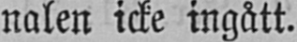nalen icke ingått.
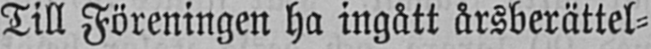Till Föreningen ha ingått årsberättel-
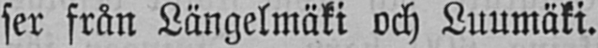ser från Längelmäki och Luumäki.
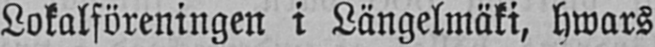Lokalföreningen i Längelmäki, hwars
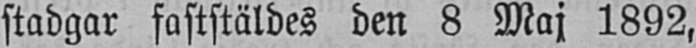stadgar faststäldes den 8 Maj 1892,
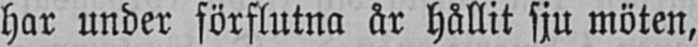har under förflutna år hållit sju möten,
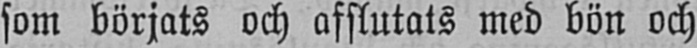som börjats och afslutats med bön och
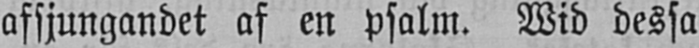afsjungandet af en psalm. Wid dessa
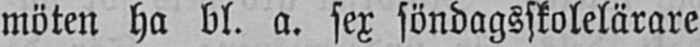möten ha bl. a. sex söndagsskolelärare
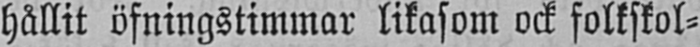hållit öfningstimmar likasom ock folkskol-
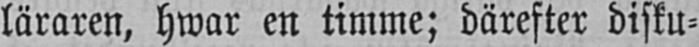läraren, hwar en timme; därefter disku-
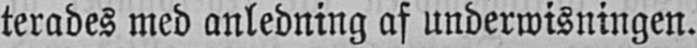terades med anledning af underwisningen.
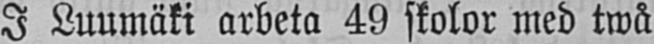I Luumäki arbeta 49 skolor med twå
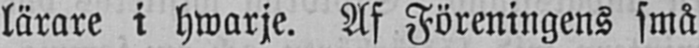lärare i hwarje. Af Föreningens små
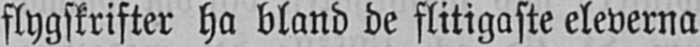flygskrifter ha bland de flitigaste eleverna
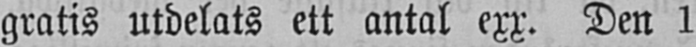gratis utdelats ett antal exx. Den 1
